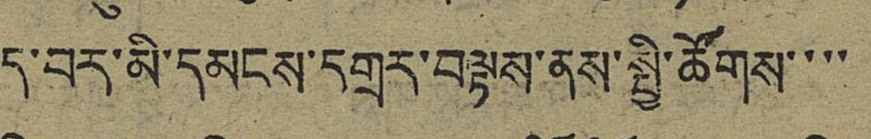ད་བར་མི་དམངས་དགྲར་བལྟས་ནས་སྤྱི་ཚོགས་་་་
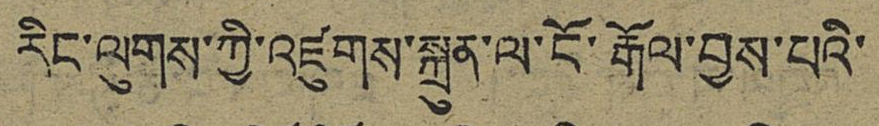རིང་ལུགས་ཀྱི་འཛུགས་སྐྲུན་ལ་ངོ་རྒོལ་བྱས་པའི་
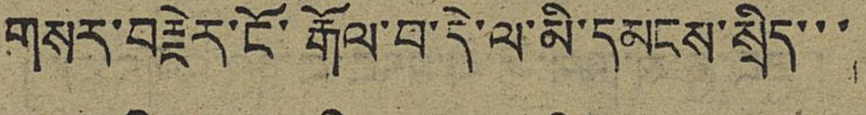གསར་བརྗེར་ངོ་རྒོལ་བ་དེ་ལ་མི་དམངས་སྲིད་་་
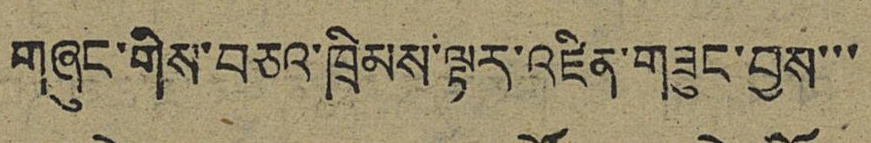གཞུང་གིས་བཅའ་ཁྲིམས་ལྟར་འཛིན་གཟུང་བྱས་་་
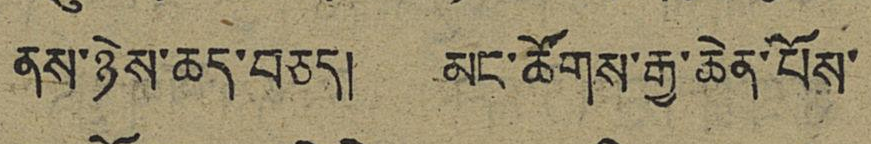ནས་ཉེས་ཆད་བཅད། མང་ཚོགས་རྒྱ་ཆེན་པོས་
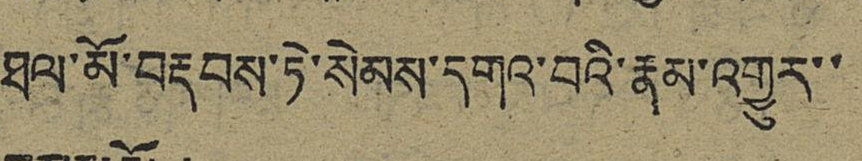ཐལ་མོ་བརྡབས་ཏེ་སེམས་དགའ་བའི་རྣམ་འགྱུར་་
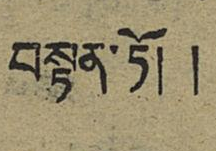བསྟན་ཏོ། །
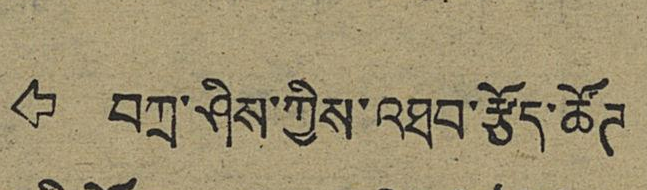⇦ བཀྲ་ཤིས་ཀྱིས་འཐབ་རྩོད་ཚོཊ
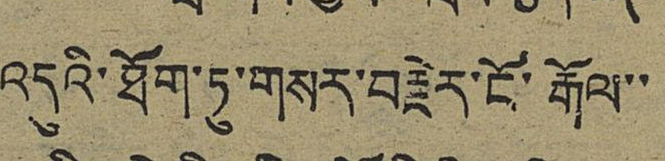འདུའི་ཐོག་ཏུ་གསར་བརྗེར་ངོ་རྒོལ་་
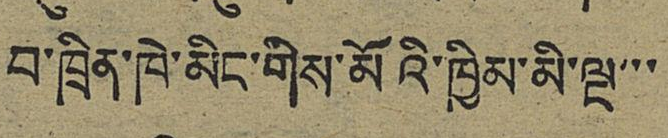བ་ཁྲིན་ཁེ་མིང་གིས་མོའི་ཁྱིམ་མི་ལྔ་་
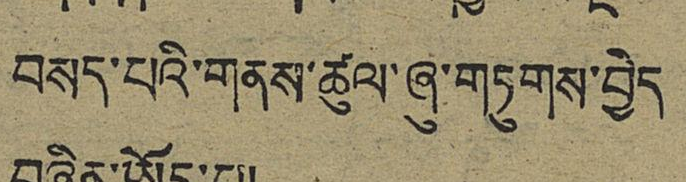བསད་པའི་གནས་ཚུལ་ཞུ་གཏུགས་བྱེད
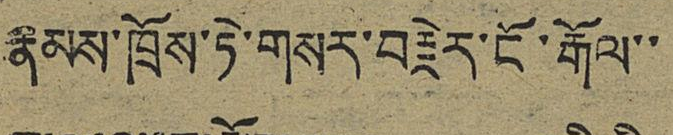རྣམས་ཁྲོས་ཏེ་གསར་བརྗེར་ངོ་རྒོལ་་
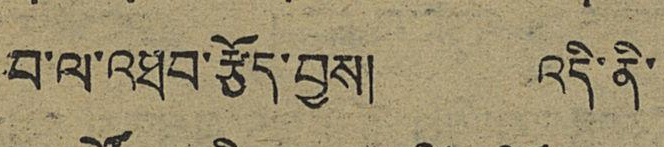བ་ལ་འཐབ་རྩོད་བྱས། འདི་ནི་
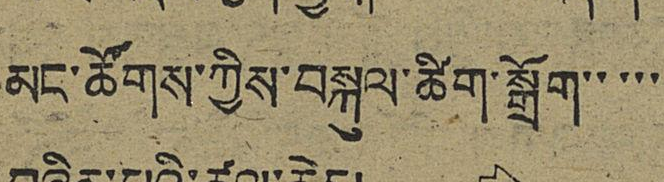མང་ཚོགས་ཀྱིས་བསྐུལ་ཚིག་སྒྲག་་་་་
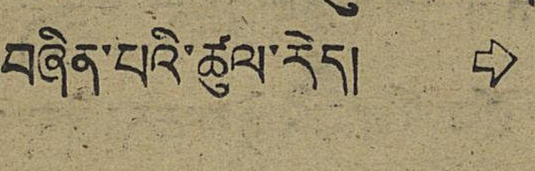བཞིན་པའི་ཚུལ་རེད། ⇨
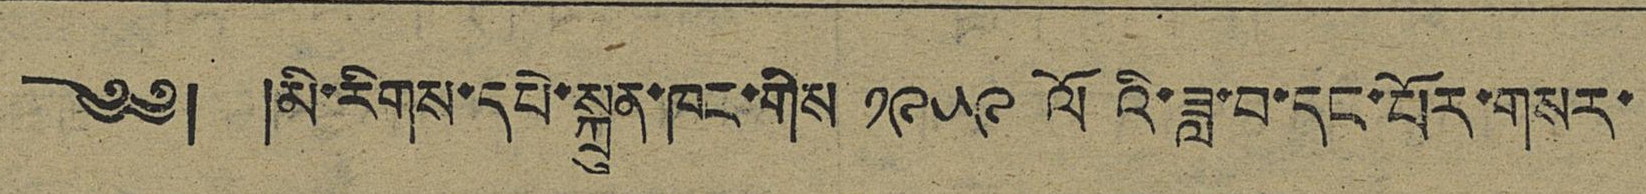༄༅། །མི་རིགས་དཔེ་སྐྲུན་ཁང་གིས ༡༩༥༩ ལོའི་ཟླ་བ་དང་པོར་གསར་
